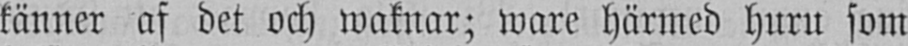känner af det och waknar; ware härmed huru som
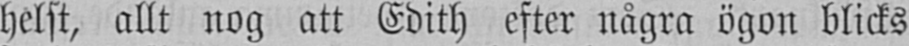helst, allt nog att Edith efter några ögon blicks
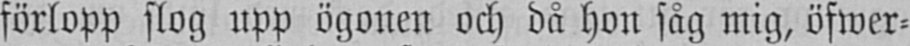förlopp slog upp ögonen och då hon såg mig, öfwer-
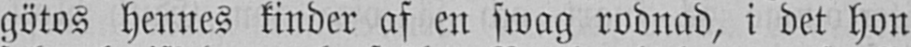götos hennes kinder af en swag rodnad, i det hon
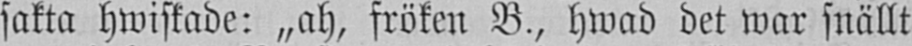sakta hwiskade: „ah, fröken B., hwad det war snällt
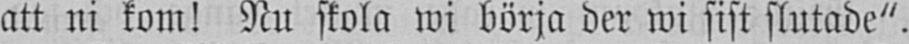att ni kom! Nu skola wi börja der wi sist slutade".
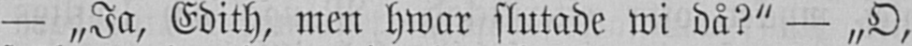— „Ja, Edith, men hwar slutade wi då?" — „O,
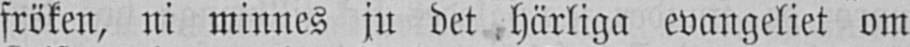fröken, ni minnes ju det härliga evangeliet om
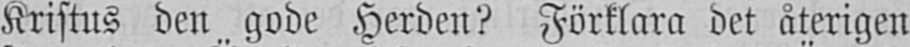Kristus den gode Herden? Förklara det återigen
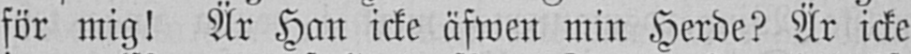för mig! Är Han icke äfwen min Herde? Är icke
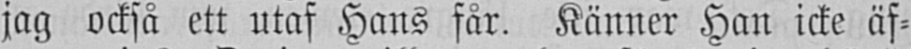jag också ett utaf Hans får. Känner Han icke äf-
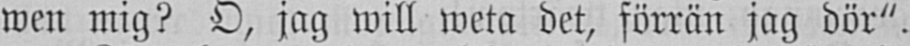wen mig? O, jag will weta det, förrän jag dör".
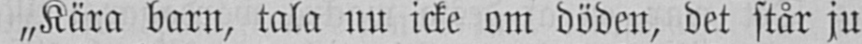"Kära barn, tala nu icke om döden, det står ju
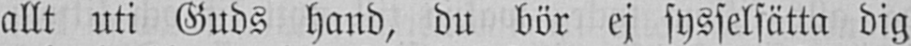allt uti Guds hand, du bör ej sysselsätta dig
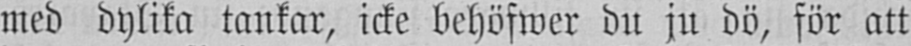med dylika tankar, icke behöfwer du ju dö, för att
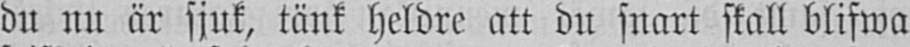du nu är sjuk, tänk heldre att du snart skall blifwa
